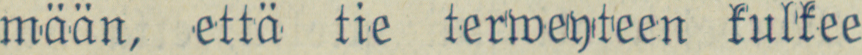mään, että tie terweyteen kulkee
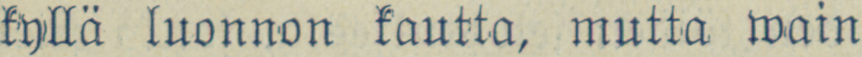kyllä luonnon kautta, mutta wain
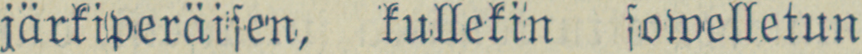järkiperäisen, kullekin sowelletun
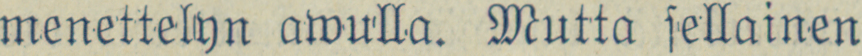menettelyn awulla. Mutta sellainen
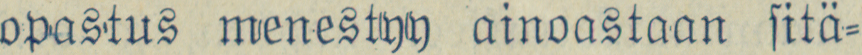opastus menestyy ainoastaan sitä-
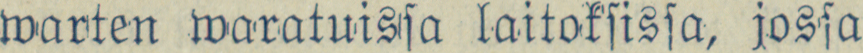warten waratuissa laitoksissa, jossa
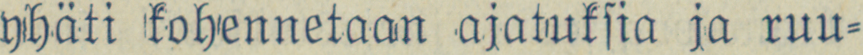yhäti kohennetaan ajatuksia ja ruu-
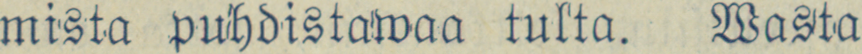mista puhdistawaa tulta. Wasta
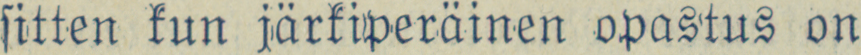sitten kun järkiperäinen opastus on
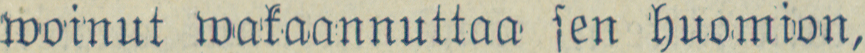woinut wakaannuttaa sen huomion,
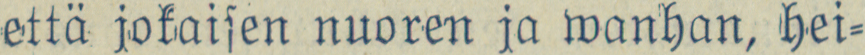että jokaisen nuoren ja wanhan, hei-
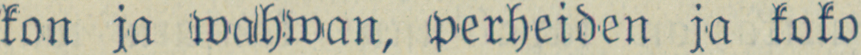kon ja wahwan, perheiden ja koko
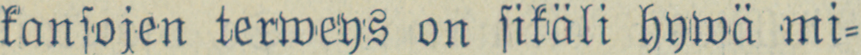kansojen terweys on sikäli hywä mi-
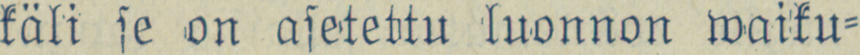käli se on asetettu luonnon waiku-
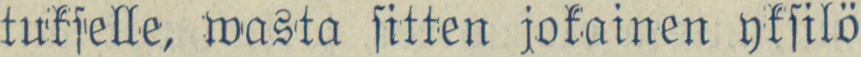tukselle, wasta sitten jokainen yksilö
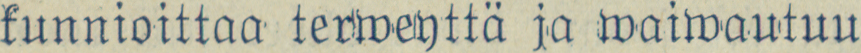kunnioittaa terweyttä ja waiwautuu
